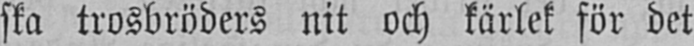ska trosbröders nit och kärlek för det
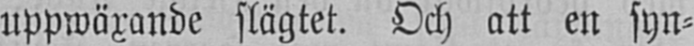uppwäxande slägtet. Och att en syn-
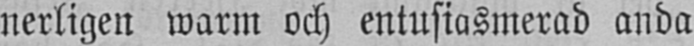nerligen warm och entusiasmerad anda
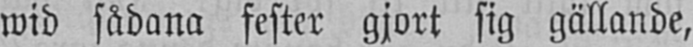wid sådana fester gjort sig gällande,
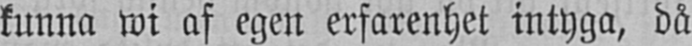kunna wi af egen erfarenhet intyga, då
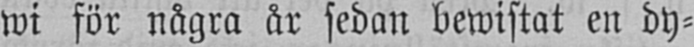wi för några är sedan bewistat en dy-
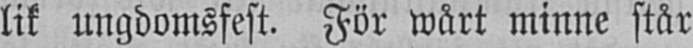lik ungdomsfest. För wårt minne står
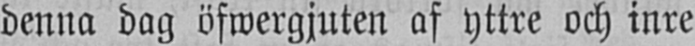denna dag öfwergjuten af yttre och inre
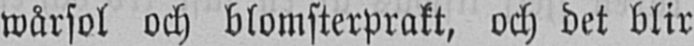wårsol och blomsterprakt, och det blir
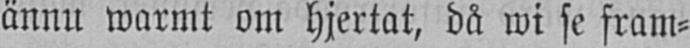ännu warmt om hjertat, då wi se fram-
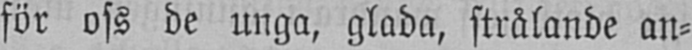för oss de unga, glada, strålande an-
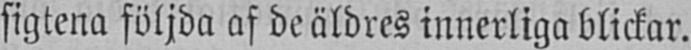sigtena följda af de äldres innerliga blickar.
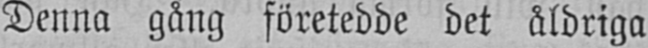Denna gång företedde det åldriga
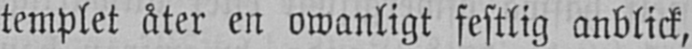templet åter en owanligt festlig anblick,
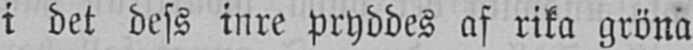i det dess inre pryddes af rika gröna
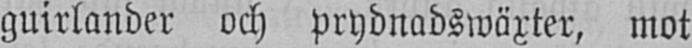guirlander och prydnadswäxter, mot
